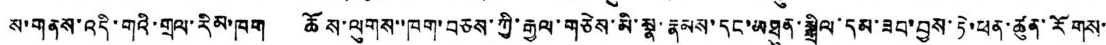ས་གནས་འདི་གའི་གྲལ་རིམ་ཁག ཆོས་ལུགས་་ཁག་བཅས་ཀྱི་རྒྱལ་གཅེས་མི་སྣ་རྣམས་དང་མཏུན་སྒྲིལ་དམ་ཟབ་བྱས་ཏེ་ཕན་ཚུན་རོགས་
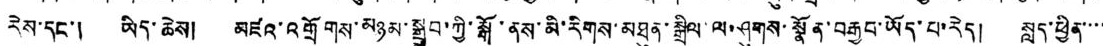རེས་དང་། ཡིད་ཆེས། མཛའ་འགྲོགས་མཉམ་སྒྲུབ་ཀྱི་སྒོ་ནས་མི་རིགས་མཐུན་སྒྲིལ་ལ་ཤུགས་སྣོན་བརྒྱབ་ཡོད་པ་རེད། སླད་ཕྱིན་་་་
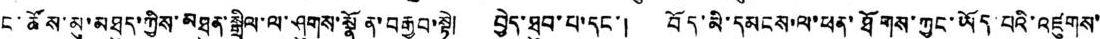ང་ཚོས་མུ་མཐུད་ཀྱིས་མཐུན་སྒྲིལ་ལ་ཤུགས་སྣོན་བརྒྱབ་སྟེ། བྱེད་ཐུབ་པ་དང་། བོད་མི་དམངས་ལ་ཕན་ཐོགས་ཀྱང་ཡོད་པའི་འཛུགས་
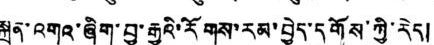སྐྲུན་འགའ་ཞིག་བྱ་རྒྱུའི་རོགས་རམ་བྱེད་དགོས་ཀྱི་རེད།
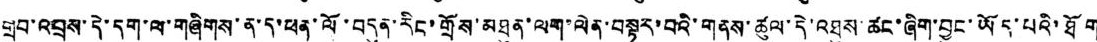གྲུབ་འབྲས་དེ་དག་ལ་གཞིགས་ན་ད་ཕན་ལོ་བདུན་རིང་གྲོས་མཐུན་ལག་ལེན་བསྟར་པའི་གནས་ཚུལ་དེ་འཐུས་ཚང་ཞིག་བྱུང་ཡོད་པའི་ཐོག
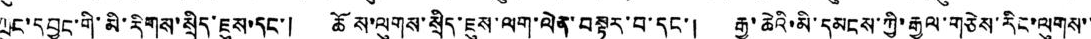ཀྲུང་དབྱང་གི་མི་རིགས་སྲིད་ཇུས་དང་། ཆོས་ལུགས་སྲིད་ཇུས་ལག་ལེན་བསྟར་བ་དང་། རྒྱ་ཆེའི་མི་དམངས་ཀྱི་རྒྱལ་གཅེས་རིང་ལུགས་་
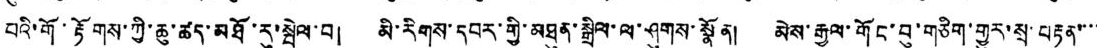བའི་གོ་རྟོགས་ཀྱི་ཆུ་ཚད་མཐོ་རུ་སྤེལ་བ། མི་རིགས་དབར་གྱི་མཐུན་སྒྲིལ་ལ་ཤུགས་སྣོན། མེས་རྒྱལ་གོང་བུ་གཅིག་གྱུར་སྲ་བརྟན་་་་
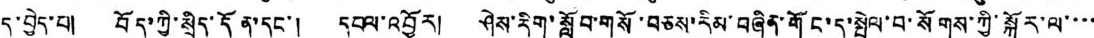དུ་བྱེད་པ། བོད་ཀྱི་སྲིད་དོན་དང་། དཔལ་འབྱོར། ཤེས་རིག་སློབ་གསོ་བཅས་རིམ་བཞིན་གོང་དུ་སྤེལ་བ་སོགས་ཀྱི་སྐོར་ལ་་་་
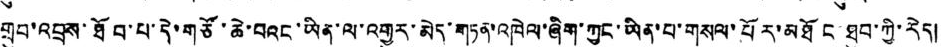གྲུབ་འབྲས་ཐོབ་པ་དེ་གཙོ་ཆེ་བའང་ཡིན་ལ་འགྱུར་མེད་གཏན་འཁེལ་ཞིག་ཀྱང་ཡིན་པ་གསལ་པོར་མཐོང་ཐུབ་ཀྱི་རེད།
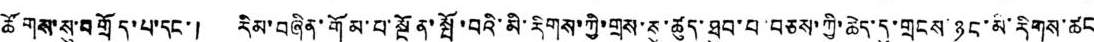ཚོགས་སུ་བགྲོད་པ་དང་། རིམ་བཞིན་གོམ་པ་སྔོན་སྤོ་བའི་མི་རིགས་ཀྱི་གྲས་སུ་ཚུད་ཐུབ་པ་བཅས་ཀྱི་ཆེད་དུ་གྲངས་ཉུང་མི་རིགས་ཚང
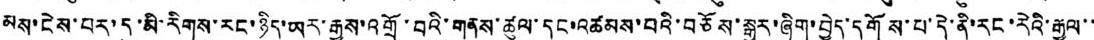མས་ངེས་བར་དུ་མི་རིགས་རང་ཉིད་ཡར་རྒྱས་འགྲོ་བའི་གནས་ཚུལ་དང་འཚམས་པའི་བཅོས་སྒྱུར་ཞིག་བྱེད་དགོས་པ་དེ་ནི་རང་རེའི་རྒྱལ་་
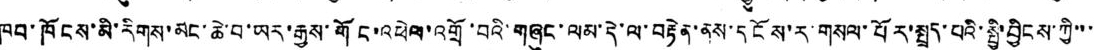ཁབ་ཁོངས་མི་རིགས་མང་ཆེ་བ་ཡར་རྒྱས་གོང་འཕེལ་འགྲོ་བའི་གཞུང་ལམ་དེ་ལ་བརྟེན་ནས་དངོས་ར་གསལ་པོར་སྤྲད་པའི་སྤྱི་བྱིངས་ཀྱི་་་
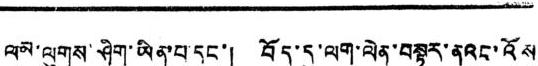ལམ་ལུགས་ཤིག་ཡིན་པ་དང་། བོད་དུ་ལག་ལེན་བསྟར་ནའང་འོས
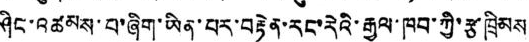ཤིང་འཚམས་པ་ཞིག་ཡིན་པར་བརྟེན་རང་རེའི་རྒྱལ་ཁབ་ཀྱི་རྩ་ཁྲིམས
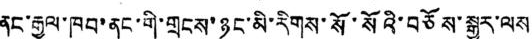ནང་རྒྱལ་ཁབ་ནང་གི་གྲངས་ཉུང་མི་རིགས་སོ་སོའི་བཅོས་སྒྱུར་ལས
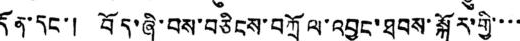དོན་དང་། བོད་ཞི་བས་བཅིངས་བཀྲོལ་འབྱུང་ཐབས་སྐོར་གྱི་་་་
